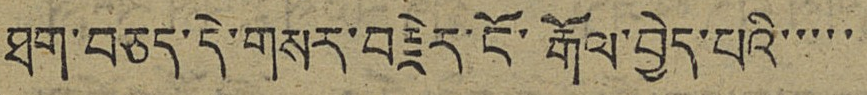ཐག་བཅད་དེ་གསར་བརྗེར་ངོ་རྒོ་བྱེད་པའི་་་་་
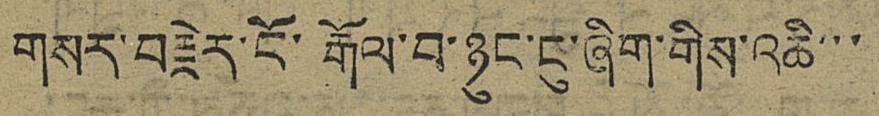གསར་བརྗེར་ངོ་རྒོལ་བ་ཉུང་ངུ་ཞིག་གིས་འཆི་་་
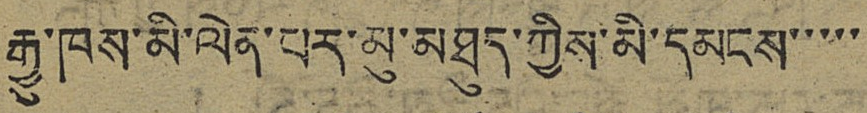རྒྱུ་ཁས་མི་ལེན་པར་མུ་མཐུད་ཀྱིས་མི་དམངས་་་་་
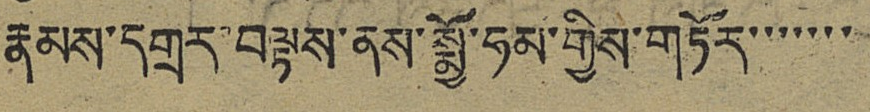རྣམས་དགྲར་བལྟས་ནས་སྨྱོ་ཧམ་གྱིས་གཏོར་་་་་་་
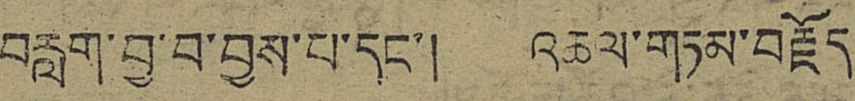བརླག་བྱ་བ་བྱས་པ་དང་། འཆལ་གཏམ་བརྗོད
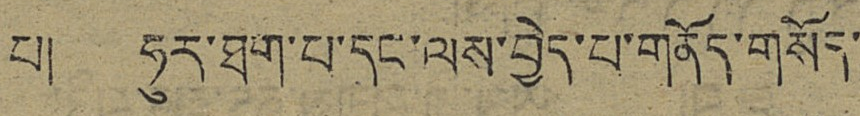པ། ཧུར་ཐག་པ་དང་ལས་བྱེད་པ་གནོད་གསོད་
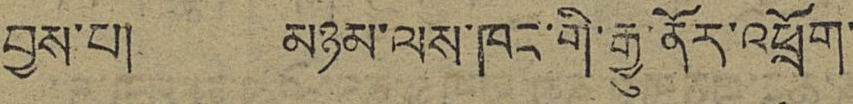བྱས་པ། མཉམ་ལས་ཁང་གི་རྒྱུ་ནོར་འཕྲོག་
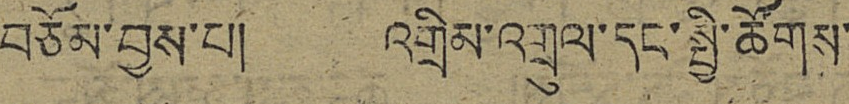བཅོམ་བྱས་པ། འགྲིམ་འགྲུལ་དང་སྤྱི་ཚོགས་
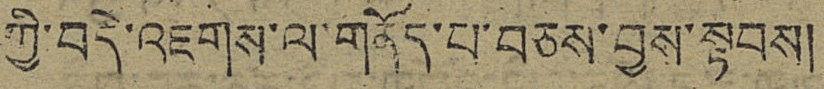ཀྱི་བདེ་འཇགས་ལ་གནོད་པ་བཅས་བྱས་སྟབས།
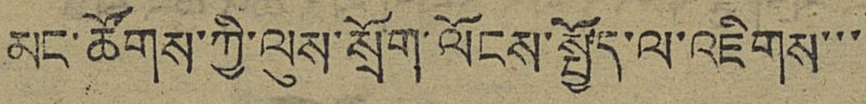མང་ཚོགས་ཀྱི་ལུས་སྲོག་ལོངས་སྤྱོད་ལ་འཇིགས་་་
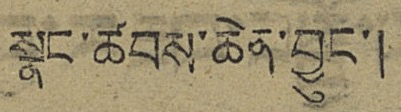སྣང་ཚབས་ཆེན་བྱུང་།
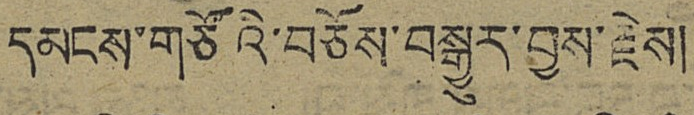དམངས་གཙོའི་བཅོས་བསྒྱུར་བྱས་རྗེས།
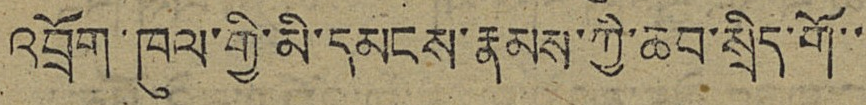འབྲོག་ཁུལ་གྱི་མི་དམངས་རྣམས་ཀྱི་ཆབ་སྲིད་གོ་་
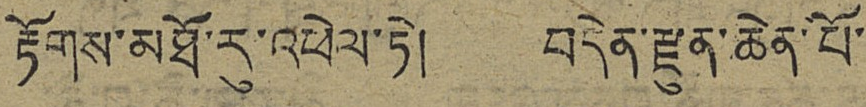རྟོགས་མཐོ་རུ་འཕེལ་ཏེ། བདེན་རྫུན་ཆེན་པོ་
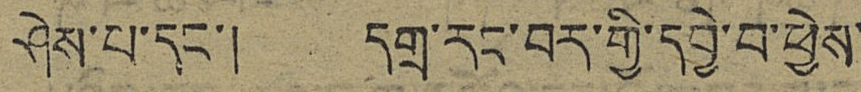ཤེས་པདང་། དགྲ་རང་བར་གྱི་དབྱེ་བ་ཕྱེས་
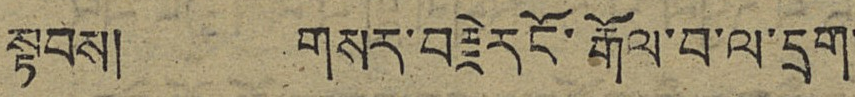སྟབས། གསར་བརྗེར ངོ་རྒོལ་བ་ལ་དྲག་
